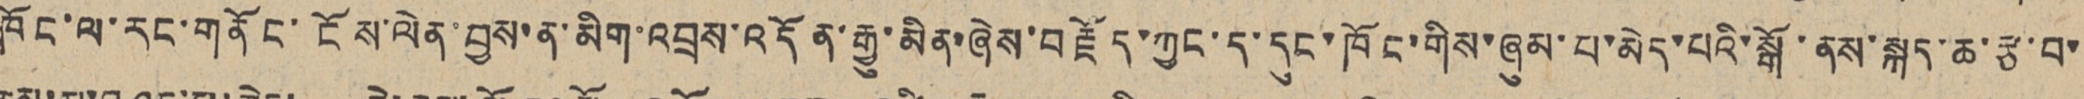ཁོང་ལ་རང་གནོང་ངོས་ལེན་བྱས་ན་མིག་འབྲས་འདོན་རྒྱུ་མིན་ཞེས་བརྗོད་ཀྱང་ད་དུང་ཁོང་གིས་ཞུམ་པ་མེད་པའི་སྒོ་ནས་སྐད་ཆ་རྩ་བ་
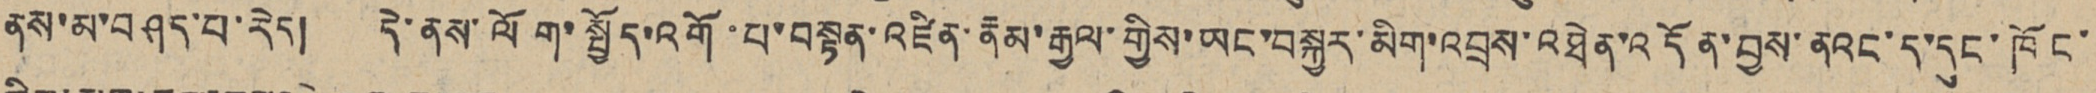ནས་མ་བཤད་པ་རེད། དེ་ནས་ལོག་སྤྱོད་འགོ་པ་བསྟན་འཛིན་རྣམ་རྒྱལ་གྱིས་ཡང་བསྐྱར་མིག་འབྲས་འཐེན་འདོན་བྱས་ནའང་ད་དུང་ཁོང་
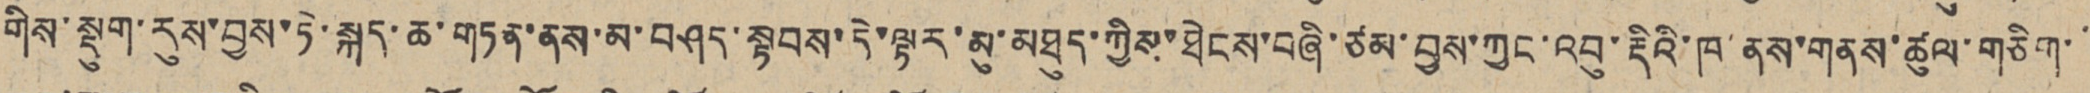གིས་སྡུག་རུས་བྱས་ཏེ་སྐད་ཆ་གཏན་ནས་མ་བཤད་སྟབས་དེ་ལྟར་མུ་མཐུད་ཀྱིས་ཐེངས་བཞི་ཙམ་བྱས་ཀྱང་འབུ་རྡིའི་ཁ་ནས་གནས་ཚུལ་གཅིག་་
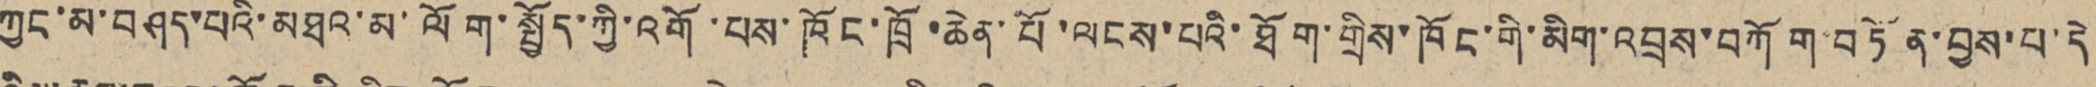ཀྱང་མ་བཤད་པའི་མཐའ་མ་ལོག་སྤྱོད་ཀྱི་འགོ་པས་ཁོང་ཁྲོ་ཆེན་པོ་ལངས་པའི་ཐོག་གྲིས་ཁོང་གི་མིག་འབྲས་བཀོག་བཏོན་བྱས་པ་དེ
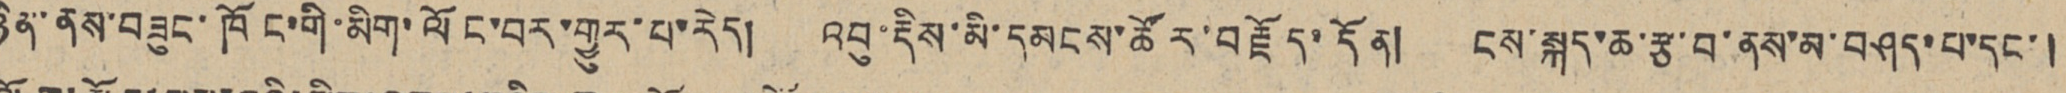ཉིན་ནས་བཟུང་ཁོང་གི་མིག་ལོང་བར་གྱུར་པ་རེད། འབུ་རྡིས་མི་དམངས་ཚོར་བརྗོད་དོན། ངས་སྐད་ཆ་རྩ་བ་ནས་མ་བཤད་པ་དང་།
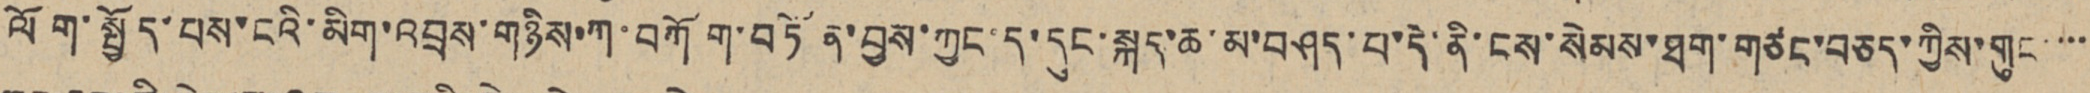ལོག་སྤྱོད་པས་ངའི་མིག་འབྲས་གཉིས་ཀ་བཀོག་བཏོན་བྱས་ཀྱང་ད་དུང་སྐད་ཆ་མ་བཤད་པ་དེ་ནི་ངས་སེམས་ཐག་གཙང་བཅད་ཀྱིས་གུང་་་་
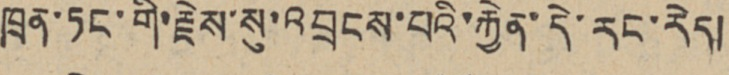ཁྲན་ཏང་གི་རྗེས་སུ་འབྲངས་བའི་རྐྱེན་དེ་རང་རེད།
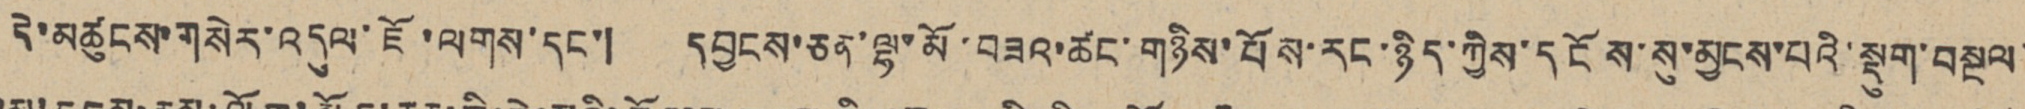དེ་མཚུངས་གསེར་འདུལ་ཇོ་ལགས་དང་། དབྱངས་ཅན་ལྷ་མོ་བཟའ་ཚང་གཉིས་པོས་རང་ཉིད་ཀྱིས་དངོས་སུ་མྱངས་པའི་སྡུག་བསྔལ་
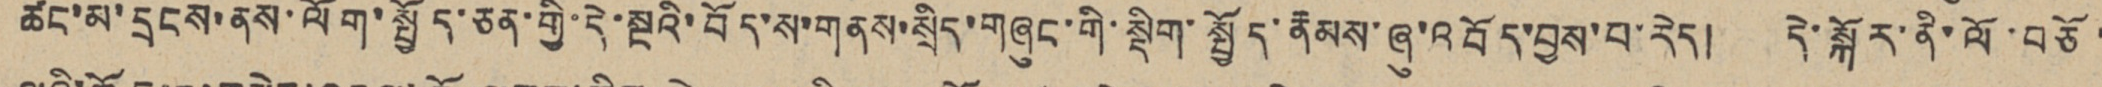ཚང་མ་དྲངས་ནས་ལོག་སྤྱོད་ཅན་གྱི་དེ་སྔའི་བོད་ས་གནས་སྲིད་གཞུང་གི་སྡིག་སྤྱོད་རྣམས་ཞུ་འབོད་བྱས་པ་རེད། དེ་སྐོར་ནི་ལོ་བཅོ་
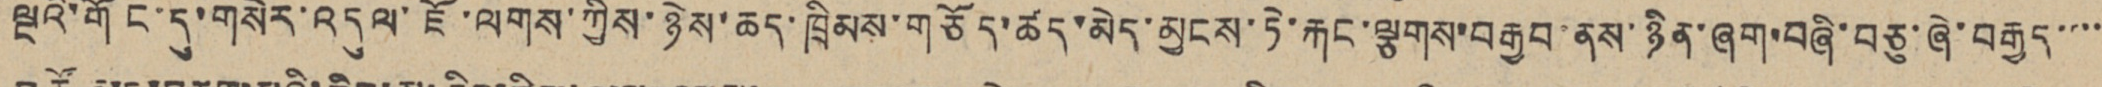ལྔའི་གོང་དུ་གསེར་འདུལ་ཇོ་ལགས་ཀྱིས་ཉེས་ཆད་ཁྲིམས་གཅོད་ཚད་མེད་མྱངས་ཏེ་རྐང་ལྕགས་བརྒྱབ་ནས་ཉིན་ཞག་བཞི་བཅུ་ཞེ་བརྒྱད་་་་
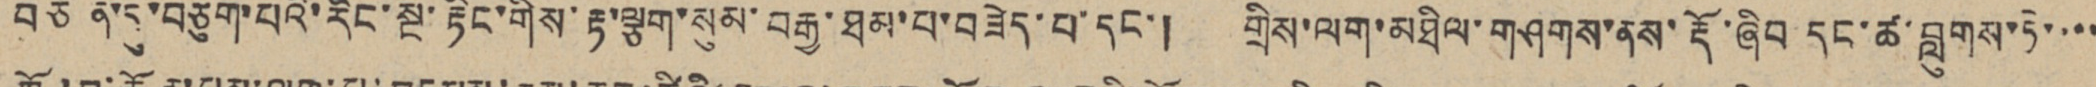བཙོན་དུ་བཅུག་པའི་རིང་སྔ་རྟིང་གིས་རྟ་ལྕག་སུམ་བརྒྱ་ཐམ་པ་བཟེད་པ་དང་། གྲིས་ལག་མཐིལ་གཤགས་ནས་རྡོ་ཞིབ དང་ཚ་བླུགས་ཏེ་་་་
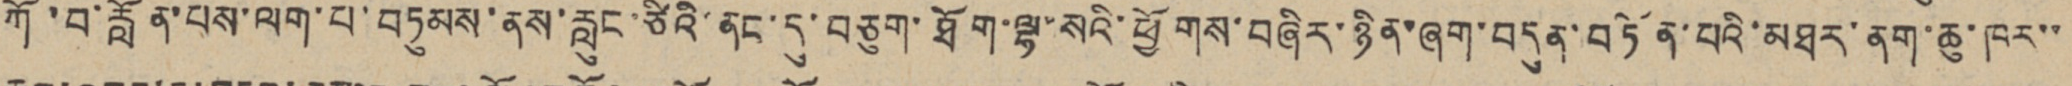ཀོ་བ་རློན་པས་ལག་པ་བཏུམས་ནས་རླུང་ཙིའི་ནང་དུ་བཅུག་ཐོག་ལྷ་སའི་ཕྱོགས་བཞིར་ཉིན་ཞག་བདུན་བཏོན་པའི་མཐར་ནག་ཆུ་ཁར་་
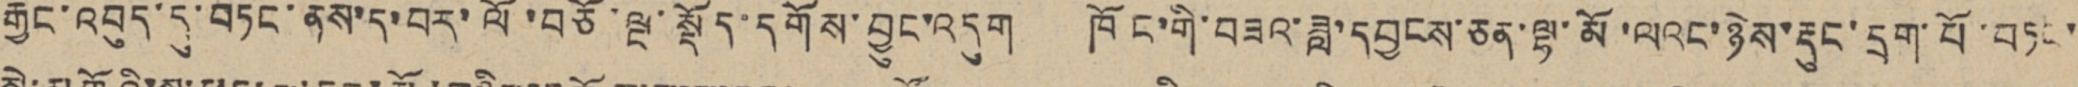རྒྱང་འབུད་དུ་བཏང་ནས་ད་བར་ལོ་བཅོ་ལྔ་སྡོད་དགོས་བྱུང་འདུག ཁོང་གི་བཟའ་ཟླ་དབྱངས་ཅན་ལྷ་མོ་ལའང་ཉེས་རྡུང་དྲག་པོ་བཏང་
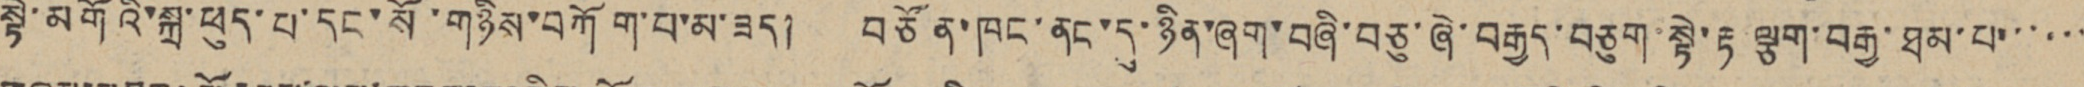སྟེ་མགོའི་སྐྲ་ཕུད་པ་དང་སོ་གཉིས་བཀོག་པ་མ་ཟད། བཙོན་ཁང་ནང་དུ་ཉིན་ཞག་བཞི་བཅུ་ཞེ་བརྒྱད་བཅུག་སྟེ་རྟ ལྕག་བརྒྱ་ཐམ་པ་་་་་་
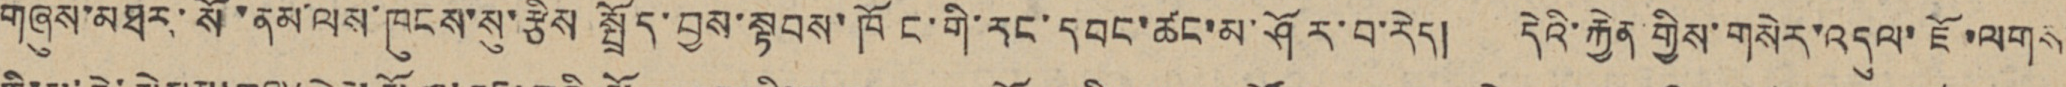གཞུས་མཐར་སོ་ནམ་ལས་ཁུངས་སུ་རྩིས སྤྲོད་བྱས་སྟབས་ཁོང་གི་རང་དབང་ཚང་མ་ཤོར་བ་རེད། དེའི་རྐྱེན་གྱིས་གསེར་འདུལ་ཇོ་ལགས་
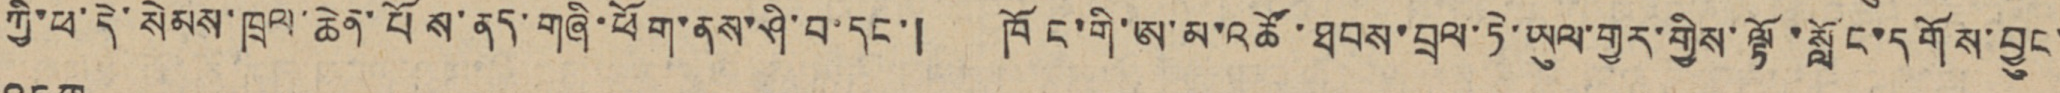ཀྱི་ཕ་དེ་སེམས་ཁྲལ་ཆེན་པོས་ནད་གཞི་ཕོག་ནས་ཤི་བ་དང་། ཁོང་གི་ཨ་མ་འཚོ་ཐབས་བྲལ་ཏེ་ཡུལ་གྱར་གྱིས་ལྟོ་སློང་དགོས་བྱུང་
